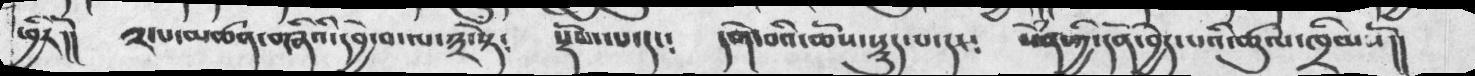ཕྱིརོ།།  ༢་པ་མཚན་གཞིའི་དབྱེ་བ་ལ་༣་སྟེ༴  སྡོམ་པ་དང༴  དགེ་བའི་ཆོས་སྡུད་པ་དང༴  སེཾན་ཀྱི་དོན་བྱེད་པའི་ཚུལ་ཁྲིམསོ།།
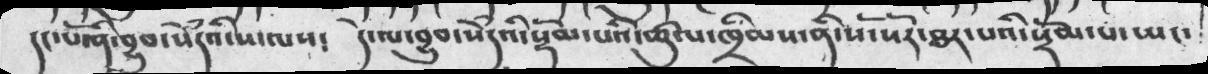དང་པོ་ནི་བྱུབ་སེཾདའི་ས་ལས༴ དེ་ལ་བྱུབ་སེཾདའི་སྡོམ་པའི་ཚུལ་ཁྲིམས་ནི་སོ་སོར་ཐར་པའི་སྡོམ་པ་ཡང་
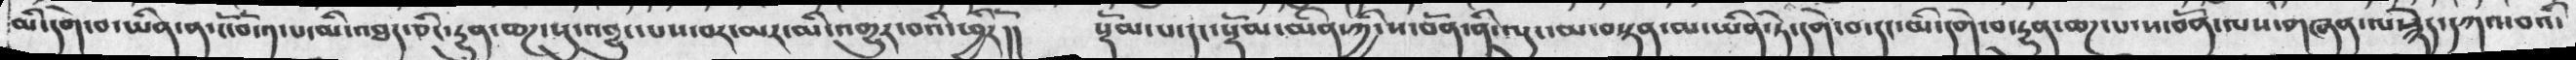མི་དགེ་བ་ཡིན་ན་ངོ་བོ་༡་པ་མི་འཐད་ཅིང་རྱུན་ཆཌ་སུ་འབྱུང་པས་བར་མར་མི་འགྱུར་བའི་ཕྱིརོ།།  སྡོམ་པ་དང་སྡོམ་མིན་ཀྱི་ས་བོན་ནི་ལུང་མ་བསྟན་མ་ཡིན་ཏེ་དགེ་བ་དང་མི་དགེ་བ་རྱུན་ཆཌ་པ་ས་བོན་ལས་གཞན་ལ་རྙེད་དཀའ་བའི་
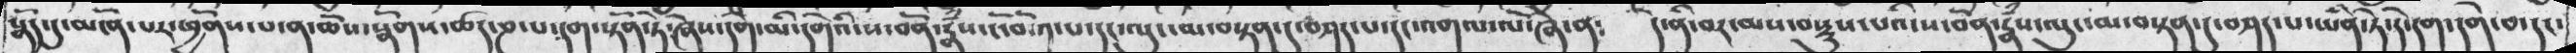སྣོད་དུ་མངོན་པར་ཕྱོགས་པ་ན་ཆོས་སྣོགས་ཚད་ཎ་པ་དག་སྟོན་ཏེ་ཞེས་དགེ་མི་དགེའི་ས་བོན་རྣཾས་ངོ་བོ་༡་པ་ལུང་མ་བསྟན་པ་དང་འགལ་ལོ་ཞེ་ན༴  དེ་ནི་བར་མས་བསྡུས་པའི་ས་བོན་རྣཾས་ལུང་མ་བསྟན་དུ་བཤད་པ་ཡིན་ཏེ་དེ་དག་དགེ་བ་དང་
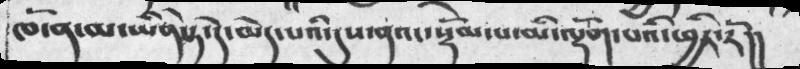ཁོ་ན་མ་ཡིན་ཏེ་དེ་མེད་པའི་དུས་ནའང་སྡོམ་པ་མི་ལྡོག་པའི་ཕྱིར་རོ།།
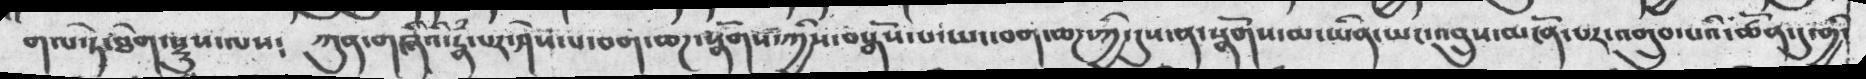གལ་ཏེ་ཐེག་སྡུས་ལས༴ ཀུན་གཞིའི་རྣཾ་པར་ཤེས་པ་བག་ཆཌ་སྣོགས་ཀྱིས་བསྒོས་པ་ཡང་དག་ཆཌ་ཀྱི་དུས་ན་སྣོགས་མ་ཡིན་ཡང་འབྲུས་མངོན་པར་འགྲུབ་པའི་ཚོན་དུ་གྱི་
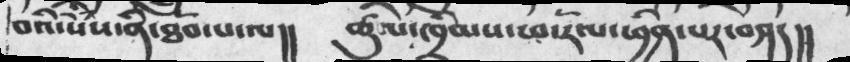བའི་སེཾས་ནི་ཐོབ་པ་ལ།། ཚུལ་ཁྲིམས་ཕ་རོལ་ཕྱིན་པར་བཤད།།
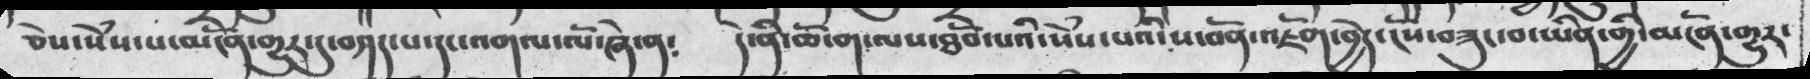ཅེས་སེཾས་པ་མངོན་གྱུར་དུ་བཤད་པ་དང་འགལ་ལོ་ཞེ་ན༴ དེ་ནི་ཆོ་ག་ལས་ཐོབ་པའི་སེཾས་པའི་ས་བོན་འཇོག་བྱེད་ངོས་བཟུང་བ་ཡིན་གྱི་མངོན་གྱུར་
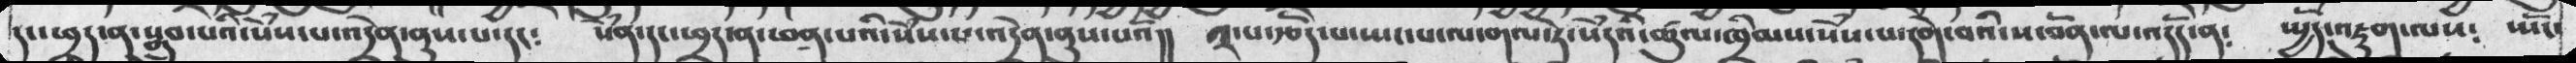དང་ཕྲད་ན་སྒྲུབ་པའི་སེཾས་པ་འདྲེན་ནུས་པ་དང༴ སེཾན་དང་ཕྲད་ན་ཕན་པའི་སེཾས་པ་འདྲེན་ནུས་པའོ།། ༢་པ་རྩོད་པ་སྤང་པ་ལ་གལ་ཏེ་སེཾདའི་ཚུལ་ཁྲིམས་སེཾས་པ་དགེ་བའི་ས་བོན་ལ་འདོད་ན༴ སྤྱོད་འཇུག་ལས༴ ཡོང་
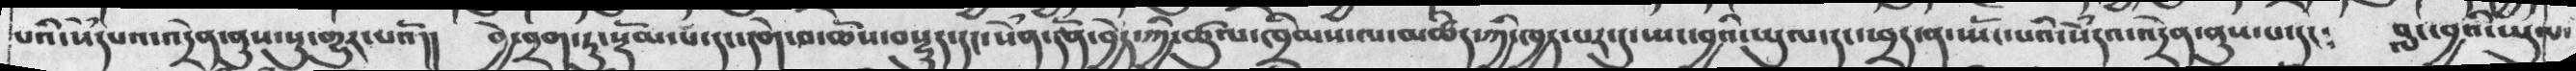པའི་སེཾདཔའ་འདྲེན་ནུས་སུ་གྱུར་པའོ།། བྱེ་བྲག་ཏུ་སྡོམ་པ་དང་དགེ་བ་ཆོས་བསྡུད་དང་སེཾན་དོན་བྱེད་ཀྱི་ཚུལ་ཁྲིམས་ལ་མཚིད་ཀྱི་ཁྱད་པར་དུ་ཡང་བྱའི་ཡུལ་དང་ཕྲད་ན་ཡོང་པའི་སེཾདའ་འདྲེན་ནུས་པ་དང༴ བླང་བྱའི་ཡུལ་
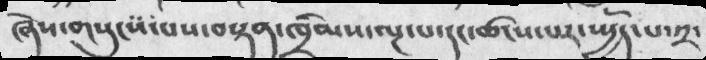ཞེས་གསུངས་པས་བསྟན་ཁྲིམས་ལྔ་པ་དང་ཚངས་པར་སྤྱོད་པ་༢་
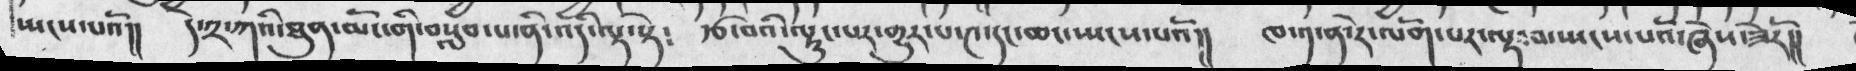ཡངས་པའོ།།  དེ་༢་ཀའི་ཐུན་མོང་གི་བསླབ་པ་ནི་འདི་ལྟ་སྟེ༴  རྩ་བའི་ལྟུང་པར་གྱུར་པ་༤་དང་ཆང་སྤངས་པའོ།།  ཁ་༡་ན་རེ་ལོག་པར་ལྟ་བ་སྤངས་པའོ་ཞེས་ཟེརོ།།
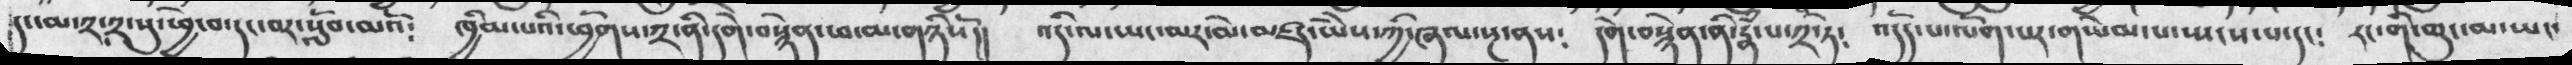དང་མ་༢་༢་སུ་ཕྱེ་བ་དང་བར་སློབ་མའོ༴  ཁྱིམ་པའི་ཕྱོགས་༢་ནི་དགེ་བསྙེན་ཕ་མ་གཉིསོ།།  འདི་ལ་ཡང་མར་མེ་མཛད་ཡཻས་ཀྱི་ཞལ་སྔ་ནས༴  དགེ་བསྙེན་ནི་རྣཾ་པ་༢་ཏེ༴  འདོད་པ་ལོག་པར་གཡེམ་པ་སྤངས་པ་དང༴  རང་གི་ཆུང་མ་ཡང་
